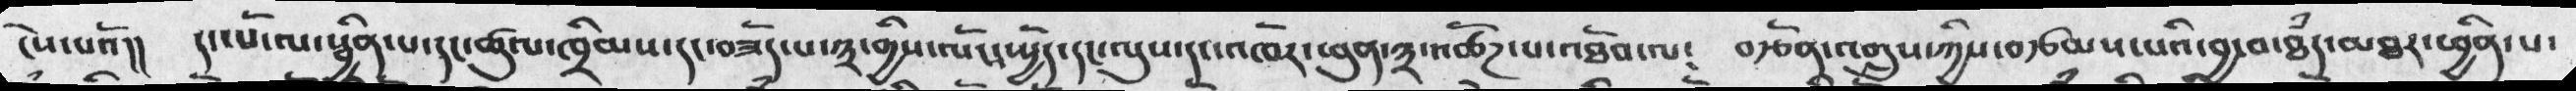ངེས་པའོ།།   དང་ོཔོ་ལ་སྦྱིན་པ་དང་ཚུལ་ཁྲིམས་དང་བཟོད་པ་༣་གྱིས་ལོང་ཡྱོད་དང་ལུས་དང་འཁོར་ཕུན་༣་འཚོཌ་པ་འཐོབ་ལ༴   བརྩོན་འགྲུས་ཀྱིས་བརྩམས་པའི་བྱ་བ་ཐཾད་མཐར་ཕྱིན་པ་
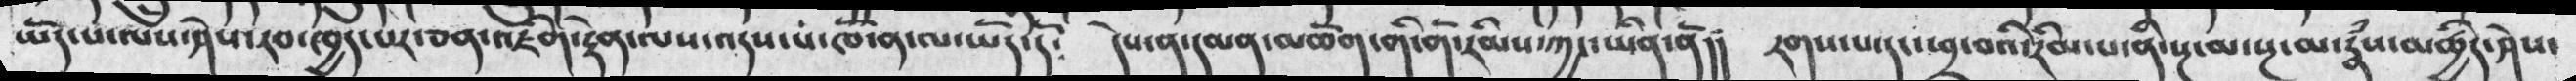ཡོད་པ་ལས་ཤེས་རབ་ཁྱད་པར་ཅན་འཇིག་རྟེན་ལས་འདས་པ་ཁོ་ན་ལ་ཡོད་དོ༴  དེས་ན་དམན་མཆོག་གི་གོ་རིམས་ཀྱང་ཡིན་ནོ།།   རགས་པ་དང་ཕྲ་བའི་རིམ་པ་ནི་སྔ་མ་རྣཾས་མཚྱིད་ཤེས་་
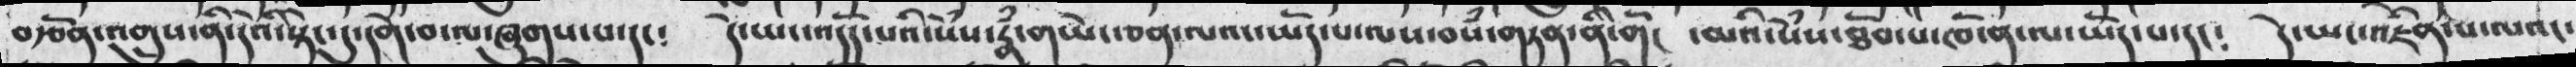བརྩོན་འགྲུས་ནི་དེའི་སྟེང་དུ་དགེ་བ་ལ་ཞུགས་པ་དང༴   དེ་ཡང་འདོད་པའི་སེཾས་རྣཾ་གཡེང་ཅན་ལའང་ཡོད་པ་ལས་བསཾ་གཏན་ནི་གོང་ མའི་སེཾས་ཐོབ་པ་ཁོ་ན་ལ་ཡོད་པ་དང༴   དེ་ཡང་འཇིེན་པ་ལའང་
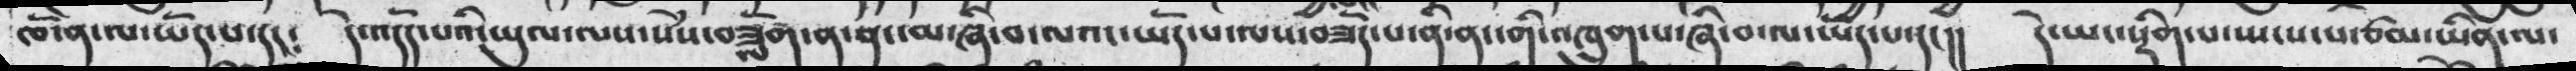ཁོ་ན་ལ་ཡོད་པ་དང༴   དེ་འདོད་པའི་་ཡུལ་ལས་སེཾས་བཟློག་ན་ནང་མ་ཞི་བ་ལའང་ཡོད་པ་ལས་བཟོད་པ་ནི་ནང་གི་འཁྲུག་པ་ཞི་བ་ལ་ཡོདཔ་དང།།  དེ་ཡང་སྡིག་པ་སྤངས་པ་ཙམ་ཡིན་ལ་
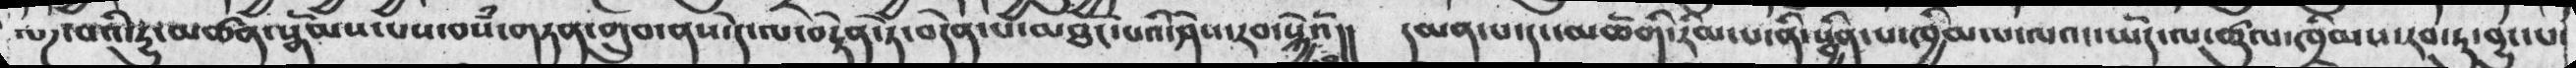ལཌ་པའི་རྱུ་མཚན་སྒོམས་པས་བསཾ་གཏན་གྲུབ་ནས་དེ་ལ་བརྟེན་ཏེ་བདེན་པ་མཐོང་པའི་ཤེས་རབ་སྐྱེའོ།།   དམན་པ་དང་མཆོགི་རིམ་པ་ནི་སྦྱིན་པ་ཁྱིམ་པ་ལའང་ཡོད་ལ་ཚུལ་ཁྲིམས་རབ་ཏུ་བྱུང་པ་
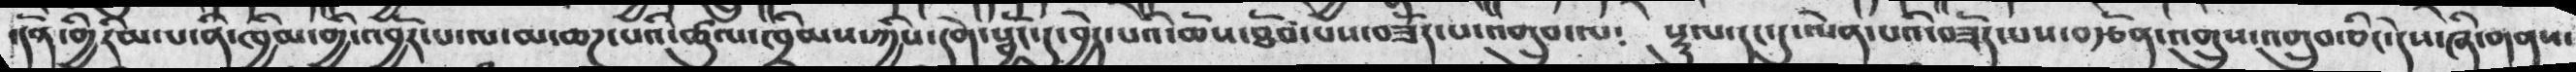་དོན་གྱི་རིམ་པ་ནི་ཁྱིམ་གྱི་འབྱོར་པ་ལ་མ་ཆཌ་པའི་ཚུལ་ཁྲིམས་ཀྱིས་དགེ་སྦྱོང་དུ་བྱེད་པའི་ཆོས་ཐོབ་པས་བཟོད་པ་འགྲུབ་ལ༴   སྡུལ་དང་དུ་ལེན་པའི་བཟོད་པས་བརྩོན་འགྲུས་འགྲུུབ་ཅིང་དེས་ཞི་གནས་
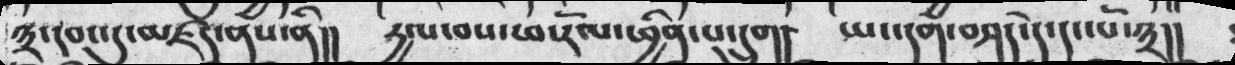༣་དབང་དུ་མཛད་ནས་ནི།།     དྱལ་བས་ཕ་རོལ་ཕྱིན་པ་དྲུག།    ཡང་དག་བཤད་དེ་དང་པོ་༣།།
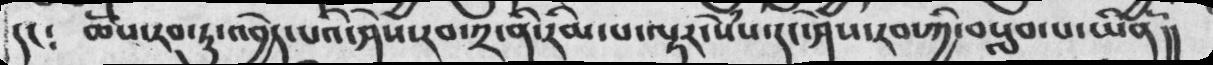དང༴    ཆོས་རབ་ཏུ་འབྱེད་པའི་ཤེས་རབ་༢་ནི་རིམ་པ་ལྟར་སེསྃ་དང་ཤེས་རབ་ཀྱི་བསླབ་པ་ཡིནོ།།
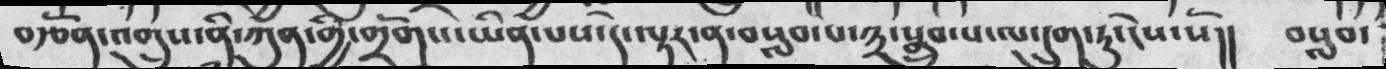བརྩོན་འགྲུས་ནི་ཀུན་གྱི་གྲོགས་ཡིན་པས་དེ་ལྟར་ན་བསླབ་པ་༣་སྒྲུབ་པ་ལ་དྲུག་ཏུ་ངེས་སོ།།     བསླབ་
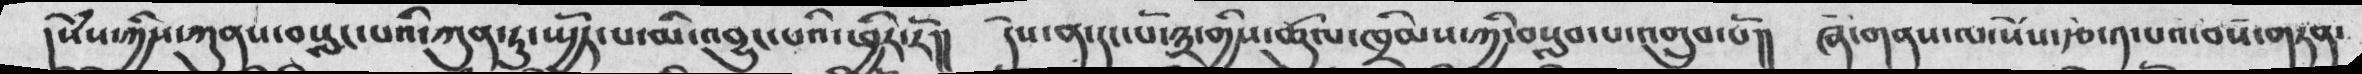།སེྃས་ཀྱིས་ཀུནས་བསླང་པའི་ཀུན་ཏུ་ཡྱོད་པ་མི་འབྱུང་པའི་ཕྱིར་རོ།།   དེས་ན་དང་པོ་༣་གྱིས་ཚུལ་ཁྲིམས་ཀྱི་བསླབ་པ་འགྲུབ་པོ།།    ཞི་གནས་ལ་སེྃས་རྩེ་༡་བསཾ་གཏན་
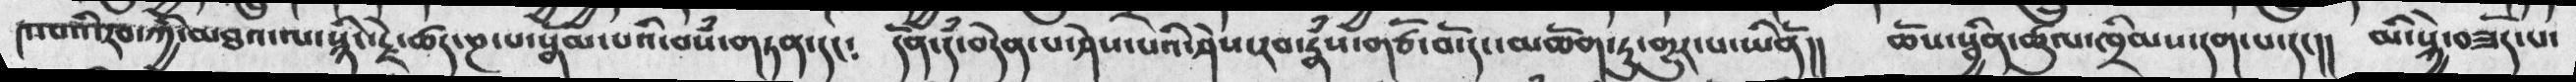།ས་པའི་རབ་ཀྱི་མཐའ་ལ་སྙིང་རྗེ་ཚད་ཎ་སྒོམ་པའི་བསཾ་གཏན་དང༴   དོན་དཾ་བདེན་པ་ཤེས་པའི་ཤེས་རབ་རྣཾས་གཙོ་བོ་དང་མཆོག་ཏུ་གྱུར་པ་ཡིནོ།།  ཆོས་སྦྱིན་ཚུལ་ཁྲིམས་དག་པ་དང།།   མི་སྐྱེ་བཟོད་པ་
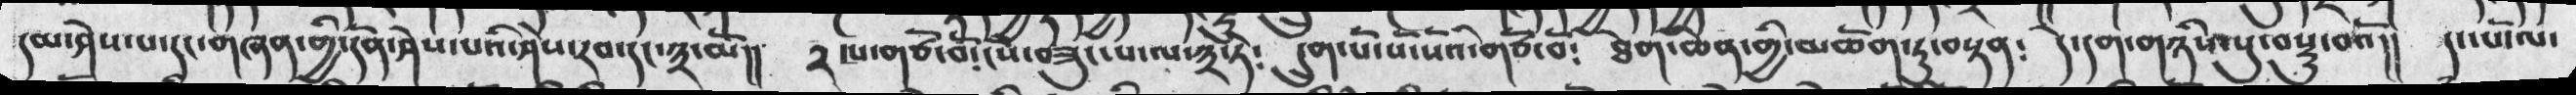དམ་ཤེས་པ་དང་གཞན་གྱི་དོན་ཤེས་པའི་ཤེས་རབ་དང་༣་མོ།།    ༢་པ་གཙོ་བོ་ངོས་བཟུང་པ་ལ་༣་ཏེ༴   དྲུག་པ་སོ་སོའི་གཙོ་བོ༴  ཐེག་ཆེན་གྱི་མཆོག་ཏུ་བསྟན༴  དེ་དག་གཉིས་སུ་བསྡུ་བའོ།།   དང་པོ་ལ་
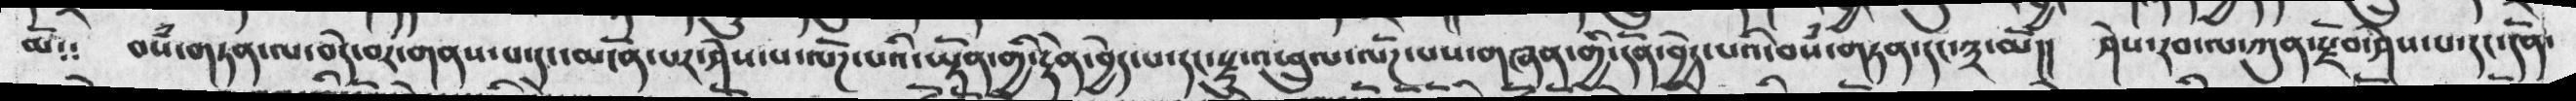མོ༴༴ བསཾ་གཏན་ལ་བདེ་བར་གནས་པ་དང་མངོན་པར་ཤེས་པ་ལོཌ་པའི་ཡྟོན་གྱི་རྟེན་བྱེད་པ་དང་སྫུ་འཕྲུལ་ལོཌ་པས་གཞན་གྱི་དོན་བྱེད་པའི་བསཾ་གཏན་དང་༣་མོ།།  ཤེས་རབ་ལ་ཀུན་སྫོབ་ཤེས་པ་དང་དོན་
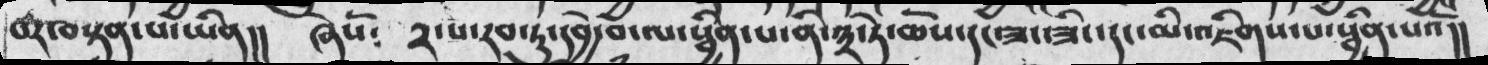བར་བསྟན་པ་ཡིན།།  ཞེསོ༴  ༢་པ་རབ་ཏུ་དབྱེ་བ་ལ་སྦྱིན་པ་ནི་༣་ཏེ་ཆོས་དང་ཟང་ཟིང་དང་མི་འཇིགས་པ་སྦྱིན་པའོ།།
